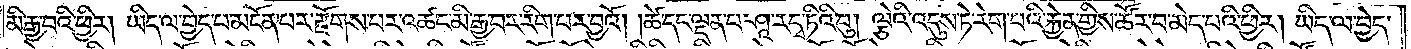མི་རྒྱ་བའི་ཕྱིར། ཡིད་ལ་བྱེད་པ་མངོན་པར་རྫོགས་པར་འཚང་མི་རྒྱ་བར་རིག་པར་བྱའོ། །ཚེ་དང་ལྡན་པ་ཤཱ་ར་དྭ་ཏིའི་བུ། ལྕེའི་འདུས་ཏེ་རེག་པའི་རྐྱེན་གྱིས་ཚོར་བ་མེད་པའི་ཕྱིར། ཡིད་ལ་བྱེད་
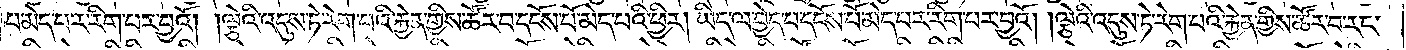པ་མེད་པར་རིག་པར་བྱའོ། །ལྕེའི་འདུས་ཏེ་རེག་པའི་རྐྱེན་གྱིས་ཚོར་བ་དངོས་པོ་མེད་པའི་ཕྱིར། ཡིད་ལ་བྱེད་པ་དངོས་པོ་མེད་པ་ར་རིག་པར་བྱའོ། །ལྕེའི་འདུས་ཏེ་རེག་པའི་རྐྱེན་གྱིས་ཚོར་བ་རང་
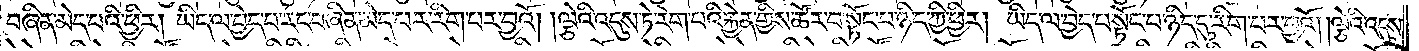བཞིན་མེད་པའི་ཕྱིར། ཡིད་ལ་བྱེད་པ་རང་བཞིན་མེད་པར་རིག་པར་བྱའོ། །ལྕེའི་འདུས་ཏེ་རེག་པའི་རྐྱེན་གྱིས་ཚོར་བ་སྟོང་པ་ཉིད་ཀྱི་ཕྱིར། ཡིད་ལ་བྱེད་པ་སྟོང་པ་ཉིད་དུ་རིག་པར་བྱའོ། །ལྕེའི་འདུས་
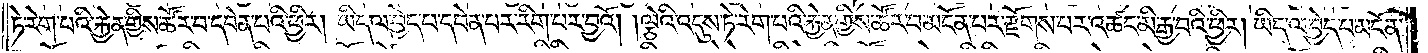ཏེ་རེག་པའི་རྐྱེན་གྱིས་ཚོར་བ་དབེན་པའི་ཕྱིར། ཡིད་ལ་བྱེད་པ་དབེན་པར་རིག་པར་བྱའོ། །ལྕེའི་འདུས་ཏེ་རེག་པའི་རྐྱེན་གྱིས་ཚོར་བ་མངོན་པར་རྫོགས་པར་འཚང་མི་རྒྱ་བའི་ཕྱིར། ཡིད་ལ་བྱེད་པ་མངོན་
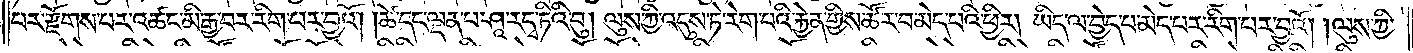པར་རྫོགས་པར་འཚང་མི་རྒྱ་པར་རིག་པར་བྱའོ། །ཚེ་དང་ལྡན་པ་ཤཱ་ར་དྭ་ཏིའི་བུ། ལུས་ཀྱི་འདུས་ཏེ་རེག་པའི་རྐྱེན་གྱིས་ཚོར་བ་མེད་པའི་ཕྱིར། ཡིད་ལ་བྱེད་པ་མེད་པར་རིག་པར་བྱའོ། །ལུས་ཀྱི་
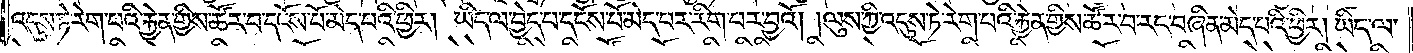འདུས་ཏེ་རེག་པའི་རྐྱེན་གྱིས་ཚོར་བ་དངོས་པོ་མེད་པའི་ཕྱིར། ཡིད་ལ་བྱེད་པ་དངོས་པོ་མེད་པར་རིག་པར་བྱའོ། །ལུས་ཀྱི་འདུས་ཏེ་རེག་པའི་རྐྱེན་གྱིས་ཚོར་བ་རང་བཞིན་མེད་པའི་ཕྱིར། ཡིད་ལ་
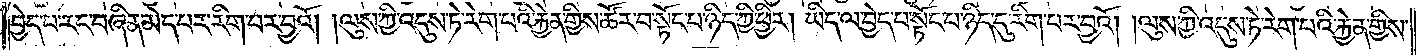བྱེད་པ་རང་བཞིན་མེད་པར་རིག་པར་བྱའོ། །ལུས་ཀྱི་འདུས་ཏེ་རེག་པའི་རྐྱེན་གྱིས་ཚོར་བ་སྟོང་པ་ཉིད་ཀྱི་ཕྱིར། ཡིད་ལ་བྱེད་པ་སྟོང་པ་ཉིད་དུ་རིག་པར་བྱའོ། །ལུས་ཀྱི་འདུས་ཏེ་རེག་པའི་རྐྱེན་གྱིས་
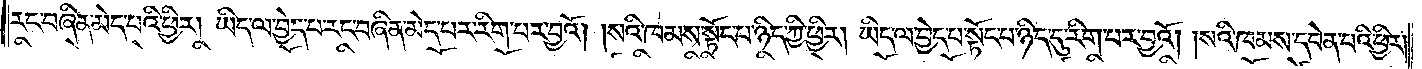རང་བཞིན་མེད་པའི་ཕྱིར། ཡིད་ལ་བྱེད་པ་རང་བཞིན་མེད་པར་རིག་པར་བྱའོ། །སའི་ཁམས་སྟོང་པ་ཉིད་ཀྱི་ཕྱིར། ཡིད་ལ་བྱེད་པ་སྟོང་པ་ཉིད་དུ་རིག་པར་བྱའོ། །སའི་ཁམས་དབེན་པའི་ཕྱིར།
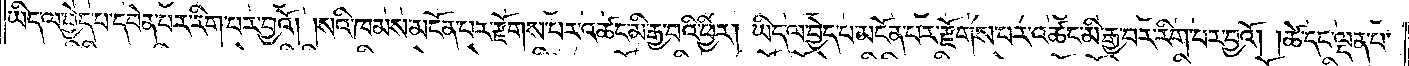ཡིད་ལ་བྱེད་པ་དབེན་པར་རིག་པར་བྱའོ། །སའི་ཁམས་མངོན་པར་རྫོགས་པར་འཚང་མི་རྒྱ་བའི་ཕྱིར། ཡིད་ལ་བྱེད་པ་མངོན་པར་རྫོགས་པར་འཚང་མི་རྒྱ་བར་རིག་པར་བྱའོ། །ཚེ་དང་ལྡན་པ་
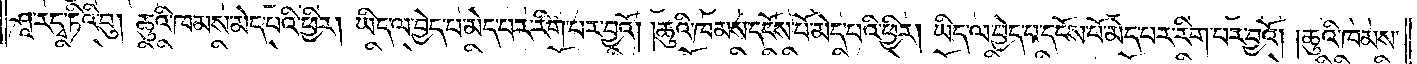ཤཱ་ར་དྭ་ཏིའི་བུ། ཆུའི་ཁམས་མེད་པའི་ཕྱིར། ཡིད་ལ་བྱེད་པ་མེད་པར་རིག་པར་བྱའོ། །ཆུའི་ཁམས་དངོས་པོ་མེད་པའི་ཕྱིར། ཡིད་ལ་བྱེད་པ་དངོས་པོ་མེད་པར་རིག་པར་བྱའོ། །ཆུའི་ཁམས་
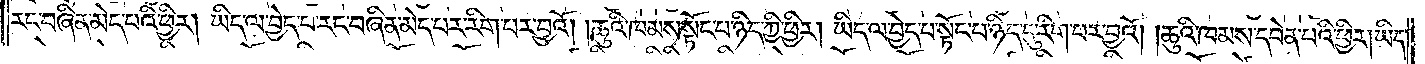རང་བཞིན་མེད་པའི་ཕྱིར། ཡིད་ལ་བྱེད་པ་རང་བཞིན་མེད་པར་རིག་པར་བྱའོ། །ཆུའི་ཁམས་སྟོང་པ་ཉིད་ཀྱི་ཕྱིར། ཡིད་ལ་བྱེད་པ་སྟོང་པ་ཉིད་དུ་རིག་པར་བྱའོ། །ཆུའི་ཁམས་དབེན་པའི་ཕྱིར། ཡིད་
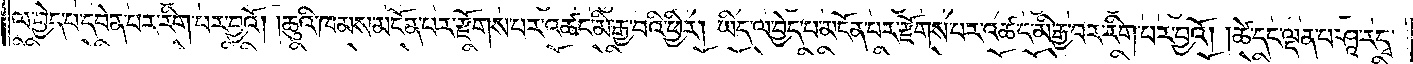ལ་བྱེད་པ་དབེན་པར་རིག་པར་བྱའོ། །ཆུའི་ཁམས་མངོན་པར་རྫོགས་པར་འཚང་མི་རྒྱ་བའི་ཕྱིར། ཡིད་ལ་བྱེད་པ་མངོན་པར་རྫོགས་པར་འཚང་མི་རྒྱ་བར་རིག་པར་བྱའོ། །ཚེ་དང་ལྡན་པ་ཤཱ་ར་དྭ་
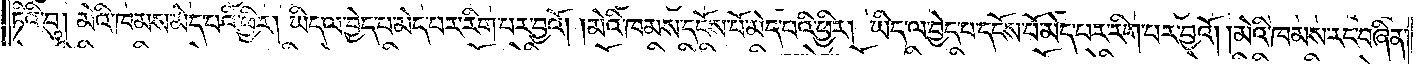ཏིའི་བུ། མེའི་ཁམས་མེད་པའི་ཕྱིར། ཡིད་ལ་བྱེད་པ་མེད་པར་རིག་པར་བྱའོ། །མེའི་ཁམས་དངོས་པོ་མེད་པའི་ཕྱིར། ཡིད་ལ་བྱེད་པ་དངོས་པོ་མེད་པར་རིག་པར་བྱའོ། །མེའི་ཁམས་རང་བཞིན་
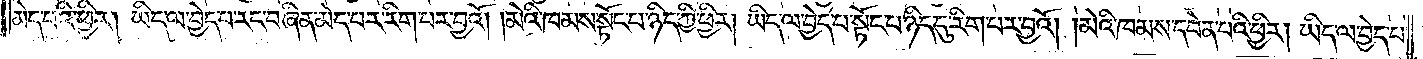མེད་པའི་ཕྱིར། ཡིད་ལ་བྱེད་པ་རང་བཞིན་མེད་པར་རིག་པར་བྱའོ། །མེའི་ཁམས་སྟོང་པ་ཉིད་ཀྱི་ཕྱིར། ཡིད་ལ་བྱེད་པ་སྟོང་པ་ཉིད་དུ་རིག་པར་བྱའོ། །མེའི་ཁམས་དབེན་པའི་ཕྱིར། ཡིད་ལ་བྱེད་པ་
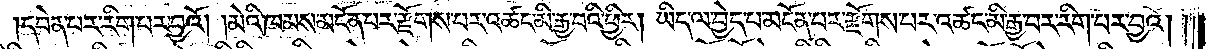དབེན་པར་རིག་པར་བྱའོ། །མེའི་ཁམས་མངོན་པར་རྫོགས་པར་འཚང་མི་རྒྱ་བའི་ཕྱིར། ཡིད་ལ་བྱེད་པ་མངོན་པར་རྫོགས་པར་འཚང་མི་རྒྱ་བར་རིག་པར་བྱའོ། །
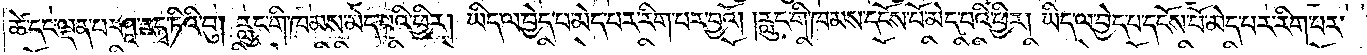ཚེ་དང་ལྡན་པ་ཤཱ་ར་དྭ་ཏིའི་བུ། རླུང་གི་ཁམས་མེད་པའི་ཕྱིར། ཡིད་ལ་བྱེད་པ་མེད་པར་རིག་པར་བྱའོ། །རླུང་གི་ཁམས་དངོས་པོ་མེད་པའི་ཕྱིར། ཡིད་ལ་བྱེད་པ་དངོས་པོ་མེད་པར་རིག་པར་
